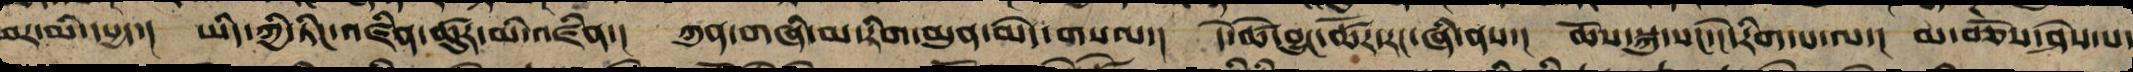ཕར་མི་དཔྱད་། ཡིད་ཀྱི་ཏིང་འཛིན་ཚུར་མི་འཛིན་། ཀུན་གཞི་མ་རིག་མུན་མེད་གསལ་། དེ་ཚེ་བྱུང་ཚོར་རང་ཞི་ནས་། ཆོས་སྐུ་སང་ངེ་རིག་པ་ལ་། མ་བཅོས་ཤེས་པ་
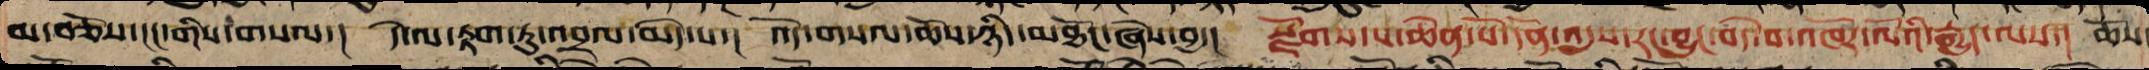མ་བཅོས་ངང་གིས་གསལ་། དེ་ལ་རྟག་ཏུ་འབྲལ་མེད་པར་། འོད་གསལ་ཆོས་ཉིད་མཐོང་ཞེས་བྱ་། སྫོགས་པ་ཆེན་པོ་དོན་འདུས་རང་བྱུང་བདེ་བའི་འཁོར་ལོའི་རྒྱུད་ལས་། ཆོས
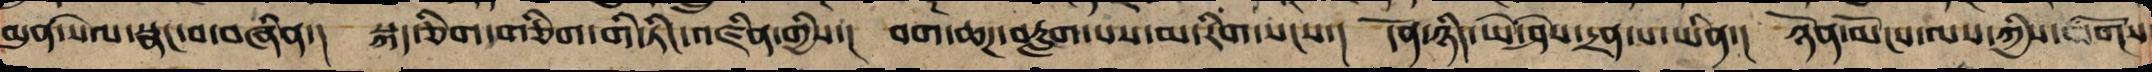མུན་སེལ་སྣང་བ་བཞིན་། སྐད་ཅིག་གཅིག་གི་ཏིང་འཛིན་གྱིས་། བག་ཆཌ་བརླག་པས་མ་རིག་སངས་། དོན་ཉིད་ཡེ་ཤེས་དྲན་པ་ཡིན་། ཉོན་མོངས་ལས་ཀྱིས་གོས་
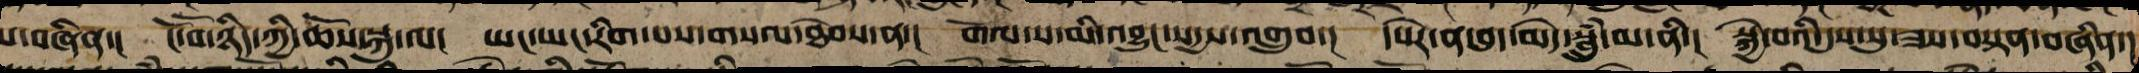པ་བཞིན་། ངོ་བོ་ཉིད་ཀྱི་ཆོས་སྐུ་ལ་། ཡང་ཡང་རིག་པས་གསལ་ཐེབས་ན་། གོལ་ས་མི་འབྱུང་སདྱས་འགྲུབ་། དཔེར་ན་བུད་མེད་སྦྲུཾ་མ་ནི་། སྐྱེ་བའི་དུས་སུ་ཟས་བསྟེན་བཞིན་།
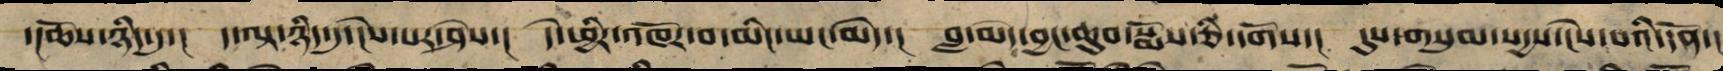་།ཆོས་ཉིད་དུ་།  ད་ལྟ་ཉིད་དུ་ངེས་པར་ཤེས་།  དེ་ཕྱིར་འཁོར་བ་མིང་ཡང་མེད་།  བླ་མེད་བྱང་ཆུབ་སྨོས་ཅི་དགོས་།  དུས་གསུམ་སདྱས་ངེས་པའི་དོན་།
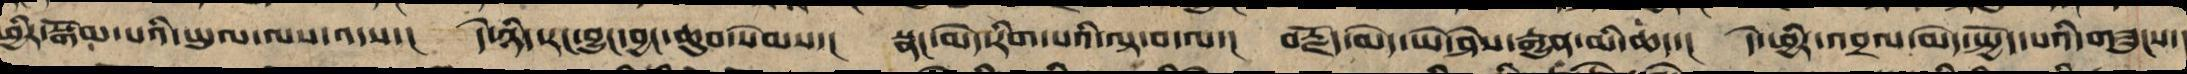ཕྱིར་སྒོམ་པའི་ཡུལ་ལས་འདས་།  དེ་ཉིད་རང་བྱུང་བྱང་ཆུབ་སེམས་།  སྣང་མེད་རིག་པའི་ལྟ་བ་ལ་།  བརྗོད་མེད་ཡེ་ཤེས་རྒྱུན་མི་ཆད་།  དེ་ཕྱིར་འབྲལ་མེད་སྤྱོད་པའི་གཟུངས་
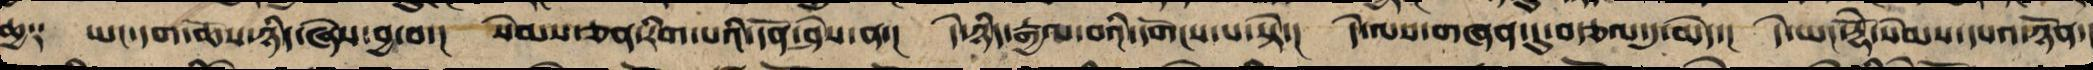ཆྱ༑ ཡང་དག་ཆོས་ཉིད་ཞེས་བྱ་བ་།  སེམས་ཅན་རིག་པའི་དོན་ཤེས་ན་།  དེ་ཉིད་རྒྱལ་བའི་དགོངས་པ་སྟེ་།  དེ་ལས་གཞན་དུ་བརྩལ་དུ་མེད་།  དེ་ཡང་རྡོཻ་སེམས་དཔའ་ཉོན་།
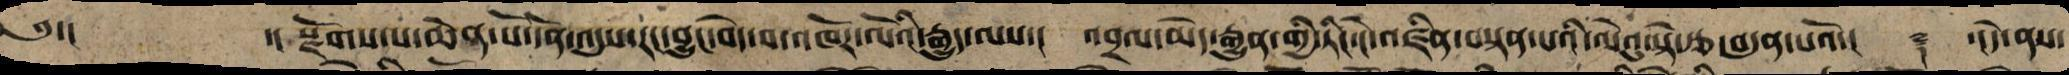༄༅་། ་།སྫོགས་པ་ཆེན་པོ་དོན་འདུས་རང་བྱུང་བདེ་བའི་འཁོར་ལོའི་རྒྱུད་ལས་། འབྲལ་མེད་རྒྱུན་གྱི་ཏིང་ངེ་འཛིན་བསྟན་པའི་ལེའུ་སྟེ་ཉི་ཤུ་རྩ་བདུན་པའོ་།། ༈ ་།།དེ་ནས་
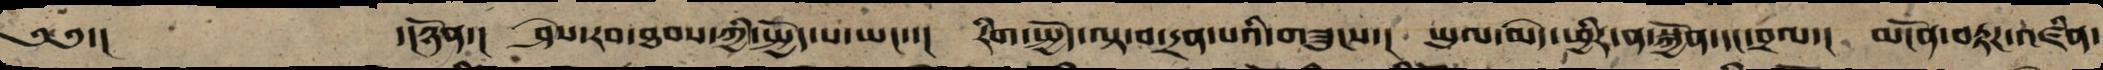༄༅་།   ་།ཉོན་། ཤེས་རབ་ཐབས་ཀྱི་སྤྱོད་པ་ཡང་་། རིག་སྤྱོད་ལྟ་བ་དྲན་པའི་གཟུངས་། ཡུལ་མེད་ཕྱིར་ན་སྐྱོན་དང་བྲལ་། མངོན་རྟཌ་འཛིན་
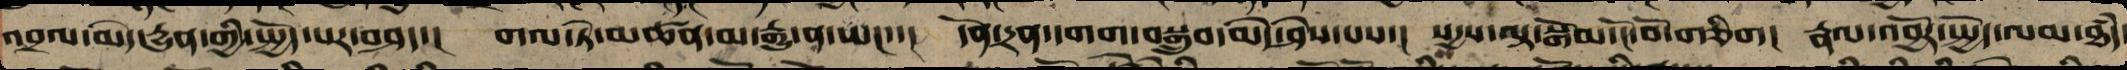འབྲལ་མེད་རྒྱུན་གྱི་སྤྱོད་པར་བཤད་། གལ་ཏེ་མཚན་མ་རྒྱུ་ན་ཡང་་། དོན་དྲན་དགག་སྒྲུབ་མེད་ཤེས་པས་། སངས་རྒྱས་ལྟ་སྒོམ་ངོ་བོ་གཅིག། རྣལ་འབྱོར་སྤྱོད་ལམ་ཐཾད་
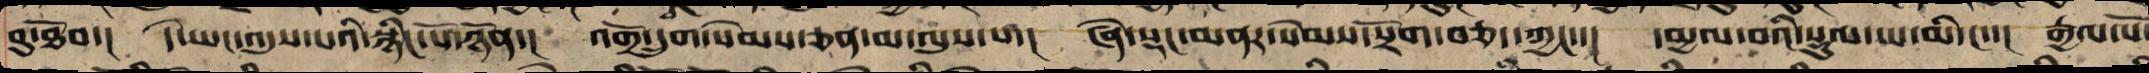བུ་ཐོབ་། དེ་ཡང་འདུས་པའི་སྙིང་པོ་ཉོན་། འགྲོ་དྲུག་སེམས་ཅན་མ་ལུས་པ་། ཞེ་སྡང་མནར་སེམས་སྲོག་བཅད་ཀྱང་་། དམྱལ་བའི་སྡུལ་ཡ་མི་ང་་། རྒྱལ་པོ་
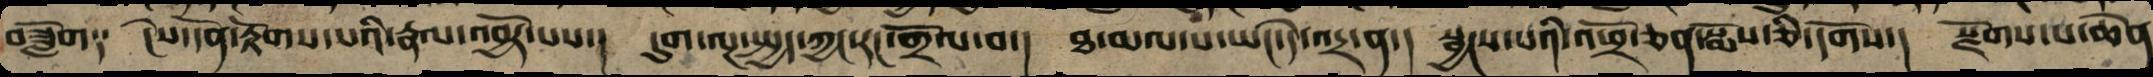བཟློག༑ ངེས་དོན་རྟོགས་པའི་རྣལ་འབྱོར་པས་། དུག་ལྔ་སྤྱད་ཀྱང་རང་གྲོལ་བ་། ཐ་མལ་པ་ཡང་དེ་འདྲ་ན་། སྦྱངས་པའི་འཕྲོ་ཅན་སྨོས་ཅི་དགོས་། སྫོགས་པ་ཆེན་
